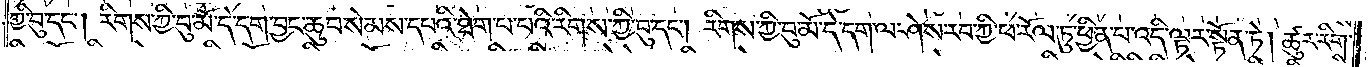ཀྱི་བུ་དང༌། རིགས་ཀྱི་བུ་མོ་དེ་དག་བྱང་ཆུབ་སེམས་དཔའི་ཐེག་པ་པའི་རིགས་ཀྱི་བུ་དང༌། རིགས་ཀྱི་བུ་མོ་དེ་དག་ལ་ཤེས་རབ་ཀྱི་ཕ་རོལ་ཏུ་ཕྱིན་པ་འདི་ལྟར་སྟོན་ཏེ། ཚུར་རིགས་
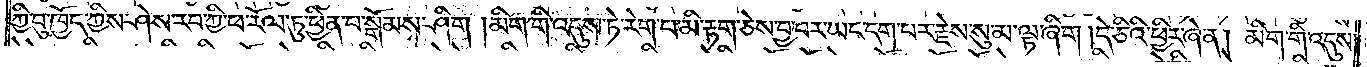ཀྱི་བུ་ཁྱོད་ཀྱིས་ཤེས་རབ་ཀྱི་ཕ་རོལ་ཏུ་ཕྱིན་པ་སྒོམས་ཤིག །མིག་གི་འདུས་ཏེ་རེག་པ་མི་རྟག་ཅེས་བྱ་བར་ཡང་དག་པར་རྗེས་སུ་མ་ལྟ་ཞིག །དེ་ཅིའི་ཕྱིར་ཞེ་ན། མིག་གི་འདུས་
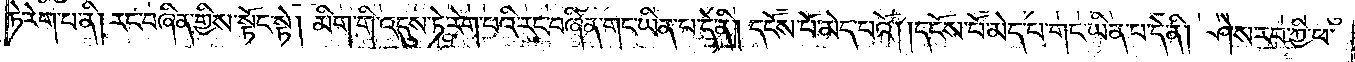ཏེ་རེག་པ་ནི། རང་བཞིན་གྱིས་སྟོང་སྟེ། མིག་གི་འདུས་ཏེ་རེག་པའི་རང་བཞིན་གང་ཡིན་པ་དེ་ནི། དངོས་པོ་མེད་པའོ། །དངོས་པོ་མེད་པ་གང་ཡིན་པ་དེ་ནི། ཤེས་རབ་ཀྱི་ཕ་
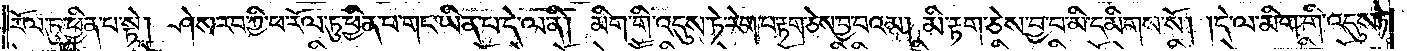རོལ་ཏུ་ཕྱིན་པ་སྟེ། ཤེས་རབ་ཀྱི་ཕ་རོལ་ཏུ་ཕྱིན་པ་གང་ཡིན་པ་དེ་ལ་ནི། མིག་གི་འདུས་ཏེ་རེག་པ་རྟག་ཅེས་བྱ་བའམ། མི་རྟག་ཅེས་བྱ་བ་མི་དམིགས་སོ། །དེ་ལ་མིག་གི་འདུས་ཏེ་
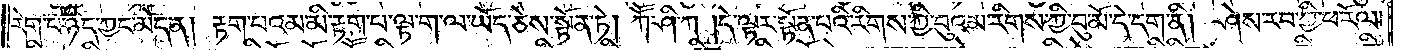རེག་པ་ཉིད་ཀྱང་མེད་ན། རྟག་པའམ་མི་རྟག་པ་ལྟ་ག་ལ་ཡོད་ཅེས་སྟོན་ཏེ། ཀཽ་ཤི་ཀ། དེ་ལྟར་སྟོན་པའི་རིགས་ཀྱི་བུའམ་རིགས་ཀྱི་བུ་མོ་དེ་དག་ནི། ཤེས་རབ་ཀྱི་ཕ་རོལ་
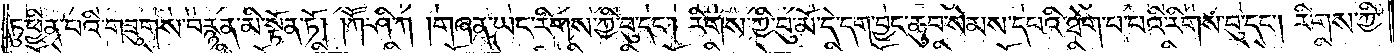ཏུ་ཕྱིན་པའི་གཟུགས་བརྙན་མི་སྟོན་ཏོ། །ཀཽ་ཤི་ཀ། གཞན་ཡང་རིགས་ཀྱི་བུ་དང༌། རིགས་ཀྱི་བུ་མོ་དེ་དག་བྱང་ཆུབ་སེམས་དཔའི་ཐེག་པ་པའི་རིགས་ཀྱི་བུ་དང༌། རིགས་ཀྱི་
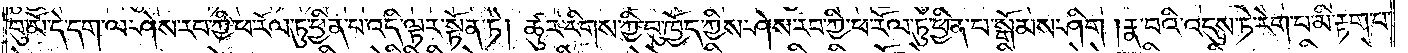བུ་མོ་དེ་དག་ལ་ཤེས་རབ་ཀྱི་ཕ་རོལ་ཏུ་ཕྱིན་པ་འདི་ལྟར་སྟོན་ཏེ། ཚུར་རིགས་ཀྱི་བུ་ཁྱོད་ཀྱིས་ཤེས་རབ་ཀྱི་ཕ་རོལ་ཏུ་ཕྱིན་པ་སྒོམས་ཤིག །རྣ་བའི་འདུས་ཏེ་རེག་པ་མི་རྟག་པ་
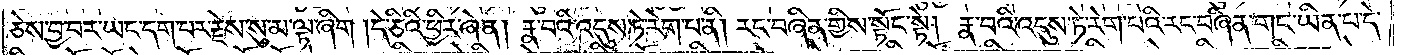ཅེས་བྱ་བར་ཡང་དག་པར་རྗེས་སུ་མ་ལྟ་ཞིག །དེ་ཅིའི་ཕྱིར་ཞེ་ན། རྣ་བའི་འདུས་ཏེ་རེག་པ་ནི། རང་བཞིན་གྱིས་སྟོང་སྟེ། རྣ་བའི་འདུས་ཏེ་རེག་པའི་རང་བཞིན་གང་ཡིན་པ་དེ་
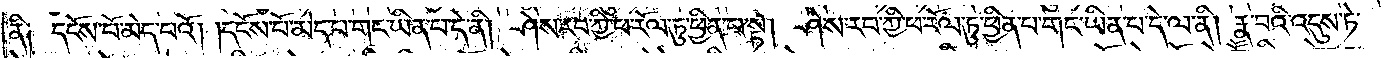ནི༑ དངོས་པོ་མེད་པའོ། །དངོས་པོ་མེད་པ་གང་ཡིན་པ་དེ་ནི། ཤེས་རབ་ཀྱི་ཕ་རོལ་ཏུ་ཕྱིན་པ་སྟེ། ཤེས་རབ་ཀྱི་ཕ་རོལ་ཏུ་ཕྱིན་པ་གང་ཡིན་པ་དེ་ལ་ནི། རྣ་བའི་འདུས་ཏེ་
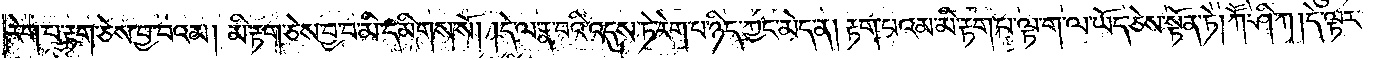རེག་པ་རྟག་ཅེས་བྱ་བའམ། མི་རྟག་ཅེས་བྱ་བ་མི་དམིགས་སོ། །དེ་ལ་རྣ་བའི་འདུས་ཏེ་རེག་པ་ཉིད་ཀྱང་མེད་ན། རྟག་པའམ་མི་རྟག་པ་ལྟ་ག་ལ་ཡོད་ཅེས་སྟོན་ཏེ། ཀཽ་ཤི་ཀ། དེ་ལྟར་
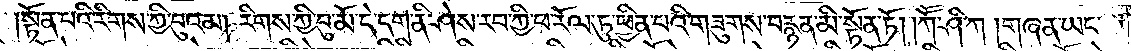སྟོན་པའི་རིགས་ཀྱི་བུའམ། རིགས་ཀྱི་བུ་མོ་དེ་དག་ནི་ཤེས་རབ་ཀྱི་ཕ་རོལ་ཏུ་ཕྱིན་པའི་གཟུགས་བརྙན་མི་སྟོན་ཏོ། །ཀཽ་ཤི་ཀ། གཞན་ཡང་
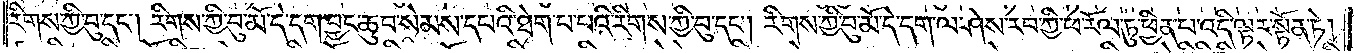རིགས་ཀྱི་བུ་དང༌། རིགས་ཀྱི་བུ་མོ་དེ་དག་བྱང་ཆུབ་སེམས་དཔའི་ཐེག་པ་པའི་རིགས་ཀྱི་བུ་དང༌། རིགས་ཀྱི་བུ་མོ་དེ་དག་ལ་ཤེས་རབ་ཀྱི་ཕ་རོལ་ཏུ་ཕྱིན་པ་འདི་ལྟར་སྟོན་ཏེ།
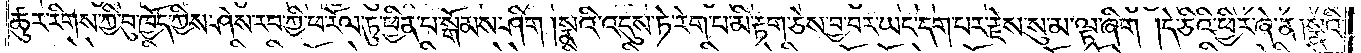ཚུར་རིགས་ཀྱི་བུ་ཁྱོད་ཀྱིས་ཤེས་རབ་ཀྱི་ཕ་རོལ་ཏུ་ཕྱིན་པ་སྒོམས་ཤིག །སྣའི་འདུས་ཏེ་རེག་པ་མི་རྟག་ཅེས་བྱ་བར་ཡང་དག་པར་རྗེས་སུ་མ་ལྟ་ཞིག། དེ་ཅིའི་ཕྱིར་ཞེ་ན། སྣའི་
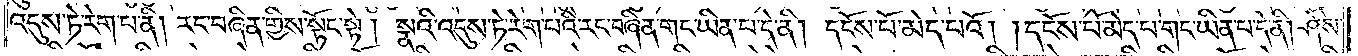འདུས་ཏེ་རེག་པ་ནི། རང་བཞིན་གྱིས་སྟོང་སྟེ། སྣའི་འདུས་ཏེ་རེག་པའི་རང་བཞིན་གང་ཡིན་པ་དེ་ནི། དངོས་པོ་མེད་པའོ། །དངོས་པོ་མེད་པ་གང་ཡིན་པ་དེ་ནི། ཤེས་
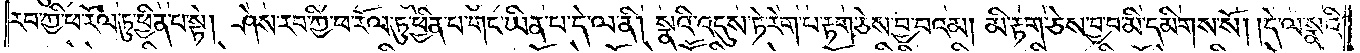རབ་ཀྱི་ཕ་རོལ་ཏུ་ཕྱིན་པ་སྟེ། ཤེས་རབ་ཀྱི་ཕ་རོལ་ཏུ་ཕྱིན་པ་གང་ཡིན་པ་དེ་ལ་ནི། སྣའི་འདུས་ཏེ་རེག་པ་རྟག་ཅེས་བྱ་བའམ། མི་རྟག་ཅེས་བྱ་བ་མི་དམིགས་སོ། །དེ་ལ་སྣའི་
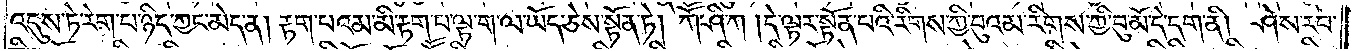འདུས་ཏེ་རེག་པ་ཉིད་ཀྱང་མེད་ན། རྟག་པའམ་མི་རྟག་པ་ལྟ་ག་ལ་ཡོད་ཅེས་སྟོན་ཏེ། ཀཽ་ཤི་ཀ། དེ་ལྟར་སྟོན་པའི་རིགས་ཀྱི་བུའམ། རིགས་ཀྱི་བུ་མོ་དེ་དག་ནི། ཤེས་རབ་
